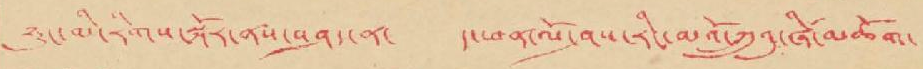ཉུང་མི་རིགས་སྐོར་ནས་བཤད་ན་ ད་ཕན་ལོ་ཤས་རིང་མའོ་ཀྲུའུ་ཞི་མཆོག་
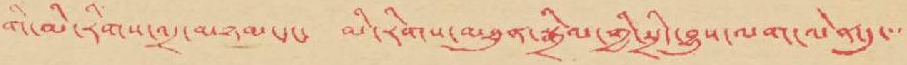གི་མི་རིགས་འདྲ་མཉམ་དང་ མི་རིགས་མཐུན་སྒྲིལ་སྲིད་བྱུས་ལག་ལེན་དུ་་་
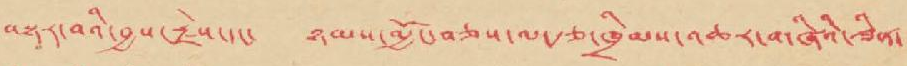བསྟར་བའི་བྱས་རྗེས་དང་ ཉམས་མྱོང་བཅས་ལ་རྩ་ཁྲིམས་འཆར་གཞིའི་ཟིན་
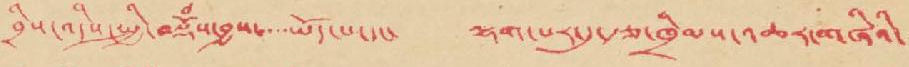བྲིས་འདིས་སྤྱི་བསྡོཾས་བྱས་་་་་ཡོད་པ་དང་ ལྷག་པར་དུ་རྩ་ཁྲིམས་འཆར་གཞིའི་
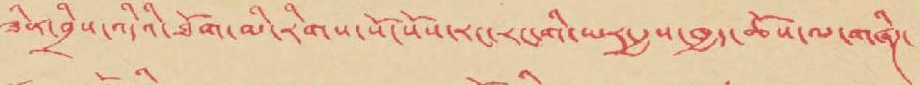ཟིན་བྲིས་འདིའི་ཐོག་མི་རིགས་སོ་སོས་རང་རང་གི་ཡར་རྒྱས་ཁྱད་ཆོས་ལ་གཞིཊ་
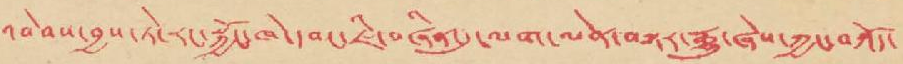འབེབས་བྱས་ཏེ་རང་སྐྱོང་ཁེ་དབང་ཇི་བཞིན་དུ་ལག་ལེན་བསྟར་རྒྱུ་ཞེས་ཀྱང་བཀོད་
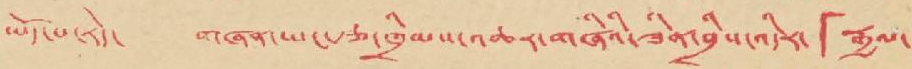ཡོད་པ་རེད་ གཞན་ཡང་རྩ་ཁྲིམས་འཆར་གཞིའི་ཟིན་བྲིས་འདིར་ 「རྒྱལ་
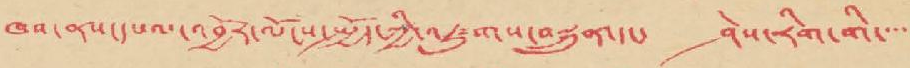ཁབ་ནས་དཔལ་འབྱོར་ལོངས་སྤྱོད་ཀྱི་འཛུགས་བསྐྲུན་དང་ ཤེས་རིག་གི་་་་
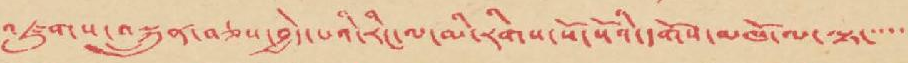འཛུགས་བསྐྲུན་བཅས་བྱེད་པའི་རིང་ལ་མི་རིགས་སོ་སོའི་དགོས་མཁོ་ལ་ལྟ་་་་་
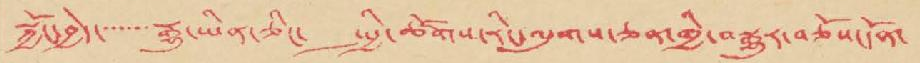སྐྱོང་བྱེད་་་་་་་རྒྱུ་ཡིན་ཅིང་ སྤྱི་ཚོགས་རིང་ལུགས་ཅན་གྱི་བསྒྱུར་བཅོས་དོན་
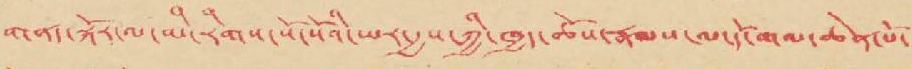གནད་སྐོར་ལ་མི་རིགས་སོ་སོའི་ཡར་རྒྱས་ཀྱི་ཁྱད་ཆོས་རྣམས་ལ་དོ་གལ་ཆེན་པོ་
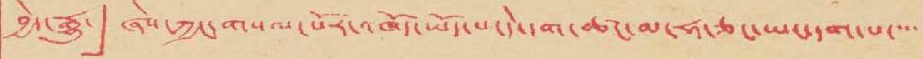བྱེད་རྒྱུ་」 ཞེས་ཀྱང་གསལ་པོར་འཁོད་ཡོད་པ་དེ་དག་ཚང་མ་ཧ་ཅང་ཡང་དག་པ་་་་
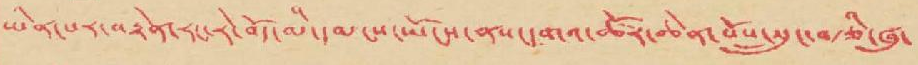ཡིན་པར་བརྟེན་རང་རེ་བོད་མི་དམངས་ཡོངས་ནས་དགའ་ཚོར་ཆེན་པོས་སྲུང་བརྩི་ཞུ་
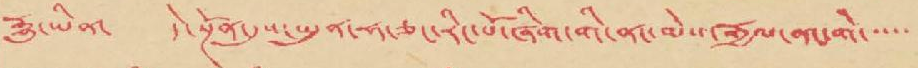རྒྱུ་ཡིན་ དེ་སྔོན་དུས་ཡུན་ཧ་ཅང་རིང་པོ་ཞིག་གི་ནང་མེས་རྒྱལ་ནང་གི་་་་་
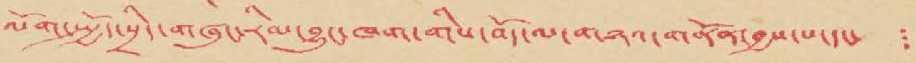ལོག་སྤྱོད་སྲིད་གཞུང་རིམ་བྱུང་ཁག་གིས་བོད་ལ་གཉའ་གནོན་བྱས་པ་དང་ །
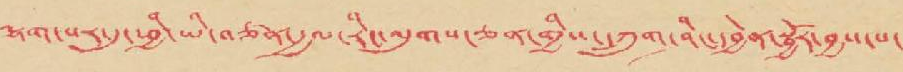ལྷག་པར་དུ་ཕྱི་ཡི་བཙན་རྒྱལ་རིང་ལུགས་ཅན་གྱིས་དཀྲུག་ཤིང་དབྱེན་སྦྱོར་བྱས་པ་
